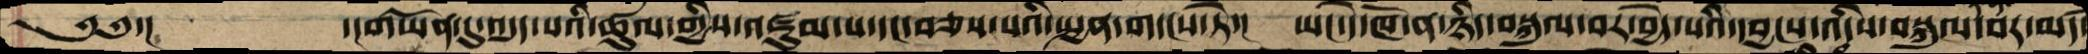༄༅་།      ་།གཡོན་དུ་འདུད་པའི་ཚུལ་གྱིས་འཛུམ་པ་དང་བཅས་པའི་སྤྱན་གདངས་ཏེ་།  ཡང་དེ་ཁོ་ན་ཉིད་བསྐུལ་བར་བྱེད་པའི་དབྱངས་འདིས་བསྐུལ་བར་མཛད་
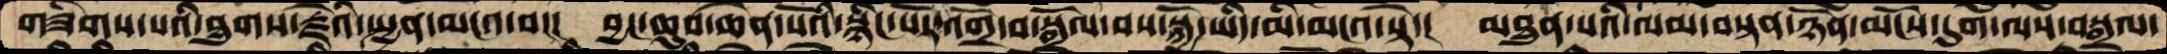གཟིགས་པའི་ཐུགས་རྗེའི་སྤྱན་མངའ་བ།།།  བྱང་ཆུབ་ཆེན་པོའི་སྙིང་པོར་འགྲོ་བ་སྒྲོལ་བས་སྐྱོ་ཡིད་མི་མངའ་སྟེ་།  མཐུན་པའི་ལམ་བསྟན་ཉོན་མོངས་དུག་ལས་བསྒྲལ་
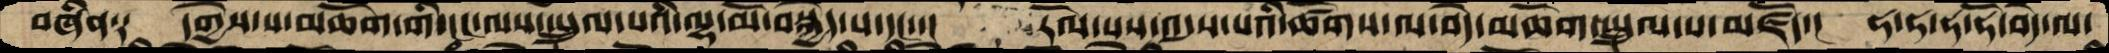བཞིན༑    དགྱེས་པ་མཆོག་གི་ངང་ལས་སྤྲུལ་པའི་ལྷ་མོ་བསྐྱེད་པ་དང་་།  རོལ་སྲས་འདུས་པའིཚོགས་ལ་བདེ་མཆོག་སྤྲུལ་པ་མཛོད་།  ཧ་ཧ་ཧ་ཧོ་བདེ་ལ་
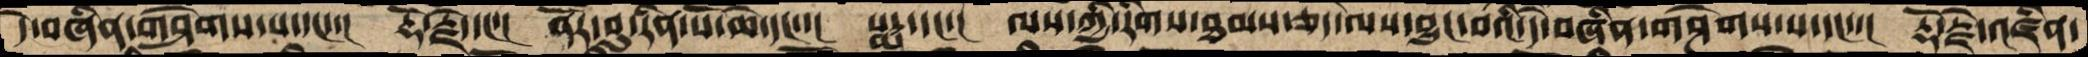དེ་བཞིན་གཤེགས་པ་དང་་།  རྡོ་རྗེ་དང་།  ནོར་བུ་རིན་པོ་ཆེ་དང་་།  པདྨ་དང་།  ལས་ཀྱི་རིགས་ཐམས་ཅད་ལས་བྱུང་བའི་དེ་བཞིན་གཤེགས་པ་དང་་།  རྡོ་རྗེ་འཛིན་
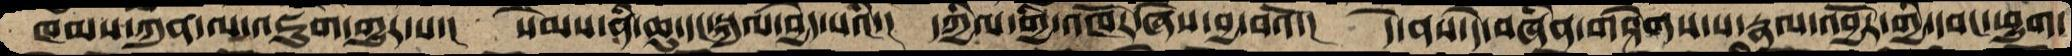ཁམས་ཀུན་ལ་འཇུག་གྱུར་པ་།  སེམས་ནི་ཆུ་དང་སྐུལ་བྱེད་པའི་།   དཀྱིལ་གྱི་འཁོར་ཞེས་བྱ་བའོ་།  དེ་ནས་དེ་བཞིན་གཤེགས་པ་རྣལ་འབྱོར་གྱི་དབང་ཕྱུག་
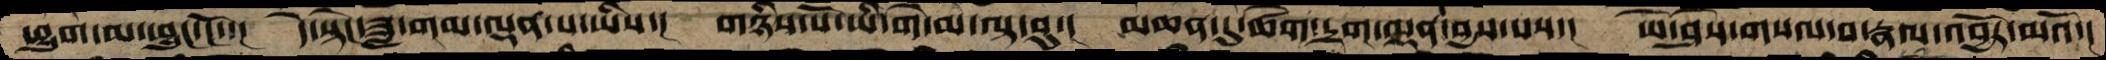ཕྱུག་མ་ཕྱུང་ངོ་་།  དེ་སྟེང་ཟླ་གམ་ལྡན་པ་ཡིས་།  གཉིས་པོ་ཡི་གེ་མ་ལྟ་བུ་།  མཆན་དུ་ཚེག་དྲག་ལྡན་བྱས་པས་།  ཡེ་ཤེས་གསལ་བ་རྣལ་འབྱོར་མའོ་།
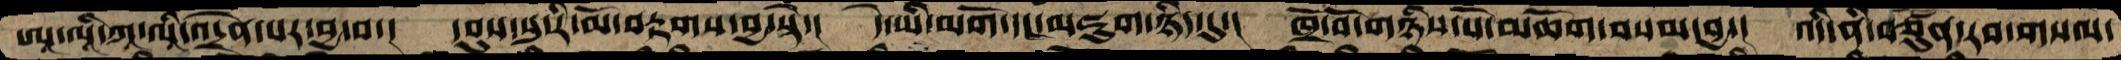ཨཱ་ལཱི་ཀཱ་ལཱི་འདྲེན་པར་བྱ་བ་།  དབུས་སུ་རི་མོ་བརྟགས་བྱ་སྟེ་།  དེ་ཡི་མགོ་དང་མཇུག་ཉིད་དུ་།  ཁྲོ་བོ་གཉིས་པོ་མཆོག་བསམ་བྱ་།  འདི་ནི་བཙུན་རབ་གསལ་
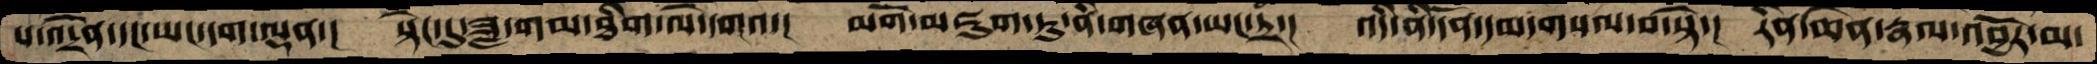པ་འདྲེན་དང་ཡང་དག་ལྡན་།  སྟེང་དུ་ཟླ་གམ་ཐིག་ལེ་དགའ་།  མགོ་མཇུག་ཏུ་ནི་གཞན་ཡང་ཏྲ་།  འདི་ནི་དོན་དམ་གསལ་བ་སྟེ་།  རིན་ཆེན་རྣལ་འབྱོར་མ་
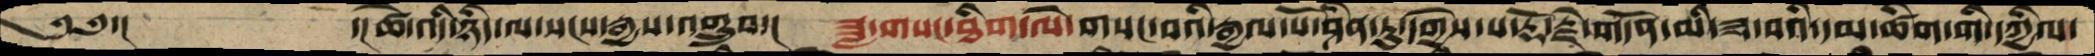༄༅་།     ་།ཚེ་འདི་ཉིད་ལ་སངས་རྒྱས་འགྲུབ་།  ཟླ་གསང་ཐིག་ལེ་གསང་བའི་རྒྱལ་པོ་ཤིན་ཏུ་དགྱེས་པ་རྡོ་རྗེ་གདོན་མི་ཟ་བའི་དམ་ཚིག་གི་དཀྱིལ་
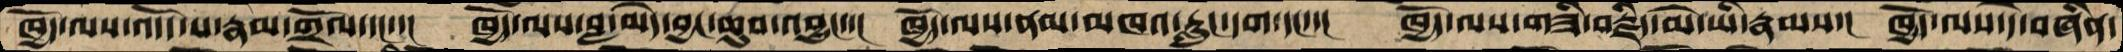ཁྱོད་ལས་འདོད་པ་རྣམ་གྲོལ་དང་་།  ཁྱོད་ལས་བླ་མེད་བྱང་ཆུབ་འབྱུང་་།  ཁྱོད་ལས་ནམ་མཁའ་རླུང་དག་དང་་།  ཁྱོད་ལས་གཟི་བརྗིད་མེ་ཡི་རྣམས་།  ཁྱོད་ལས་དེ་བཞིན་
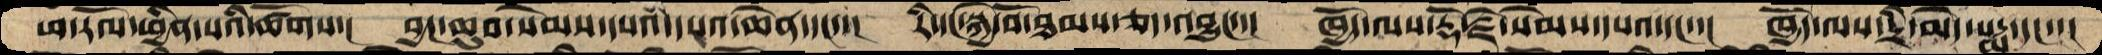ཕ་རོལ་ཕྱིན་པའི་ཚོགས་།  བྱང་ཆུབ་སེམས་དཔའི་དཔའ་ཆེན་དང་་།  རི་དང་སྐྱེ་བོ་ཐམས་ཅད་འབྱུང་་།  ཁྱོད་ལས་རྡོ་རྗེ་སེམས་དཔའ་དང་་།  ཁྱོད་ལས་དྲི་མེད་པདྨ་དང་་།
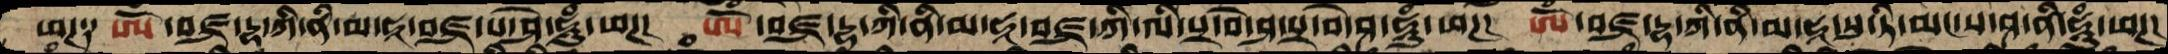ཕཊ༑  ཨོཾ་བཛྲ་དྷ་ཀི་ནི་མ་ཧཱ་བཛྲ་པ་ཤེ་ཧཱུཾ་ཕཊ།  ཨོཾ་བཛྲ་དྷ་ཀི་ནི་མ་ཧཱ་བཛྲ་ཀི་ལི་པྲ་བེ་ཤ་པྲ་བེ་ཤ་ཧཱུཾ་ཕཊ།  ཨོཾ་བཛྲ་དྷ་ཀི་ནི་མ་ཧཱ་སུ་ཏི་མང་ས་ཤ་ནི་ཧཱུཾ་ཕཊ།
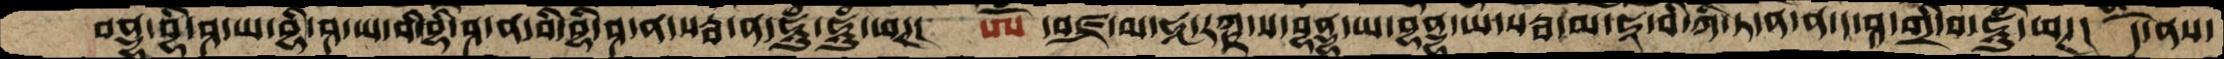བནྡྷ་བྷི་ཤ་ཡ་བྷི་ཤ་ཡ་བི་བྷི་ཤ་ན་བི་བྷི་ཤ་ན་སརྦ་ན་ཧཱུཾ་ཧཱུཾ་ཕཊ།  ཨོཾ ་བཛྲ་མ་ཧཱ་རཀྵ་ས་བྷནྡྷ་ཡ་བྷནྡྷ་ཡ་སརྦ་མ་ཧཱ་བི་ཀི་ཏ་ན་ན་ད་ཤྭ་གྲི་བ་ཧཱུཾ་ཕཊ།  དེ་ནས་
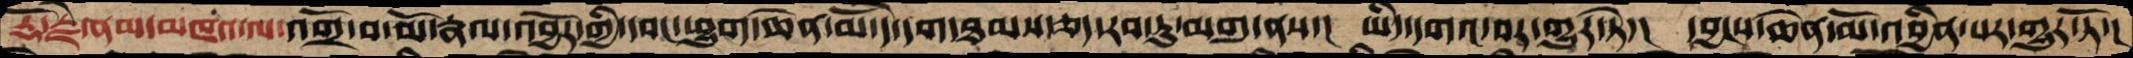རྡོ་རྗེ་ནམ་མཁའ་ལ་འགྲོ་བ་མོ་རྣལ་འབྱོར་གྱི་དབང་ཕྱུག་ཆེན་མོ་དེ་དག་ཐམས་ཅད་རབ་ཏུ་མགུ་ནས་།  ཡིད་དགའ་བར་གྱུར་ཏེ་།  དབྱངས་ཆེན་མོ་འབྱིན་པར་གྱུར་ཏོ་།
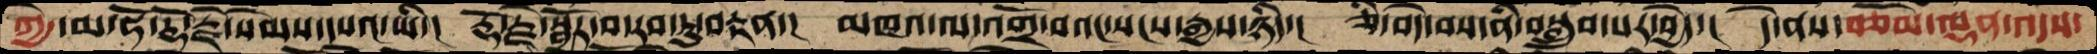ཀྱེ་མ་ཧོ་རྡོ་རྗེ་སེམས་དཔའ་ཡི་།  རྡོ་རྗེ་སྦྱོར་བ་རབ་ཏུ་བརྟན་།  མཁའ་ལ་འགྲོ་བའང་སངས་རྒྱས་ཉིད་།  ཅི་བདེ་བས་ནི་བསྒྲུབ་པར་བྱེད་།  དེ་ནས་བཅོམ་ལྡན་འདས་
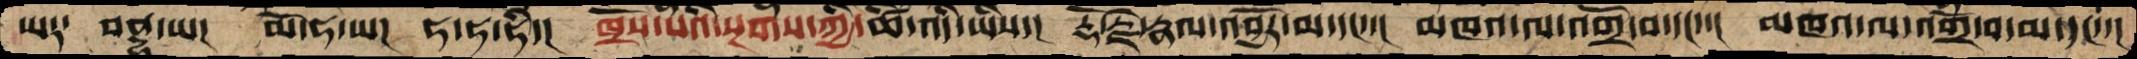ཡ༑  བནྡྷ་ཡ།  མོ་ཧ་ཡ།  ཧ་ཧ་ཧི་།  ཁྲོས་པའི་སྔགས་ཀྱི་ཚེ་འདི་ཡིས་།  རྡོ་རྗེ་རྣལ་འབྱོར་མ་དང་་།  མཁའ་ལ་འགྲོ་བ་དང་་།  མཁའ་ལ་འགྲོ་བ་མ་དང་།
